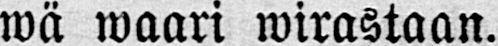wä waari wirastaan.
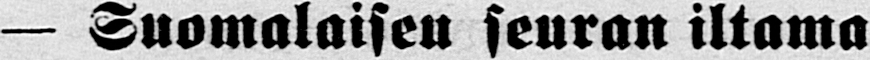— Suomalaisen seuran iltama
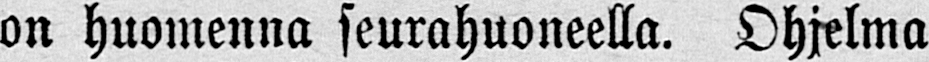on huomenna seurahuoneella. Ohjelma
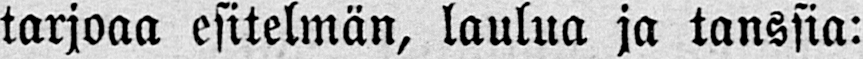tarjoaa esitelmän, laulua ja tanssia:
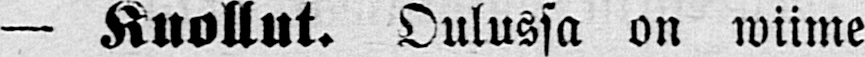— Kuollut. Oulussa on wiiime
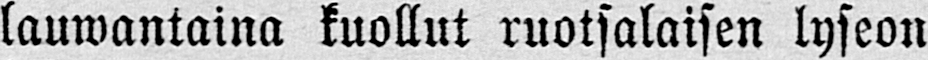lauwantaina kuollut ruotsalaisen lyseon
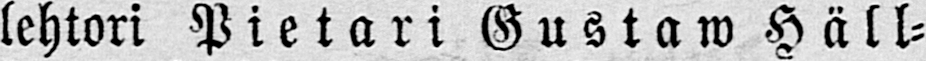lehtori Pietari Gustaw Häll-
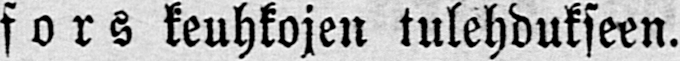fors keuhkojen tulehdukseen.
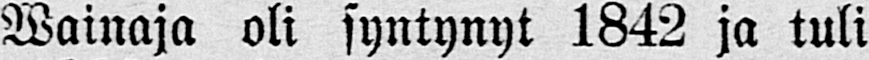Wainaja oli syntynyt 1842 ja tuli
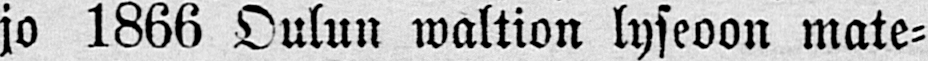jo 1866 Oulun waltion lyseoon mate-
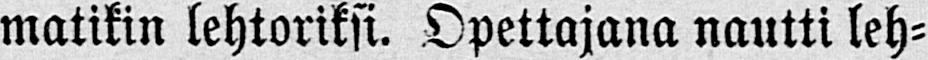matikin lehtoriksi. Opettajana nautti leh-
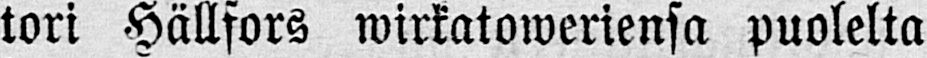tori Hällfors wirkatoweriensa puolelta
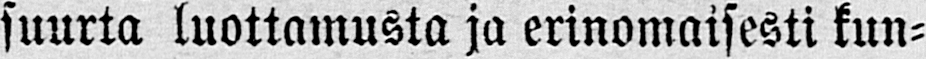suurta luottamusta ja erinomaisesti kun-
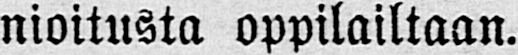nioitusta oppilailtaan.
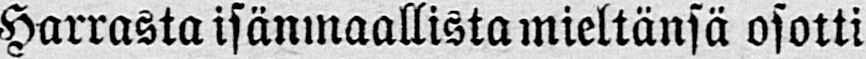Harrasta isänmaallista mieltänsä osotti
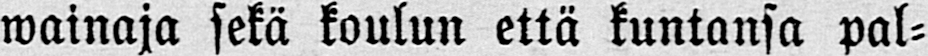wainaja sekä koulun että kuntansa pal-
